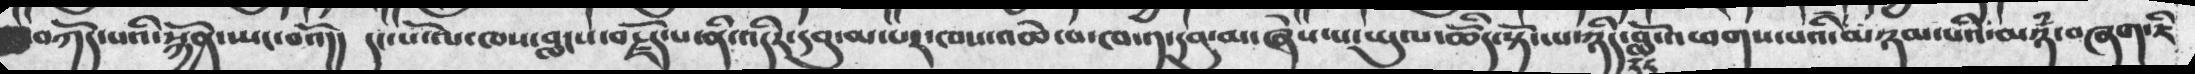བཀོད་པའི་སྐྱོན་ཡང་བའོ།།  དང་པོ་ལ་ཁས་བླངས་བརྗོད་པ་ནི་འདིར་དབུ་མ་པར་ཁས་འཆེ་བ་ཁ་༡་དབུ་མ་ཞེས་པ་ཡུལ་ཆོིད་སྟོང་པ་ཉིད་བློ་འཕགས་པའི་མཉམ་པའི་མཉཾ་བཞག་ཇི
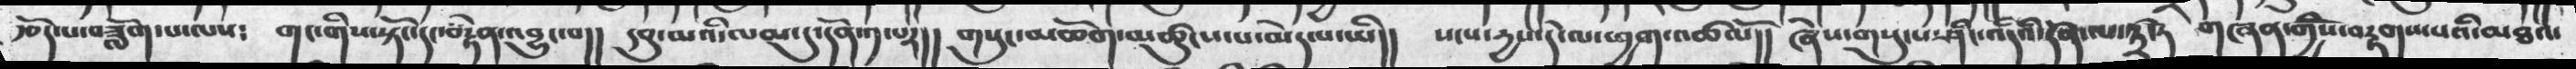རྩོད་པ་བཟློག་པ་ལས༴ གང་གིས་སྟོང་དང་བརྟེན་འབྱུང་བ།། དབུ་མའི་ལམ་དུ་དོན་༡་པར།། གསུང་མཆོག་མཚུངས་པ་མེད་པ་ཡི།། སངས་དྱས་དེ་ལ་ཕྱག་འཚལོ།། ཞེས་གསུངས་ཤིང་འདིའི་དོན་ལ་༣་ཏེ གཞན་གྱིས་བརྟགས་པའི་མཐའ་
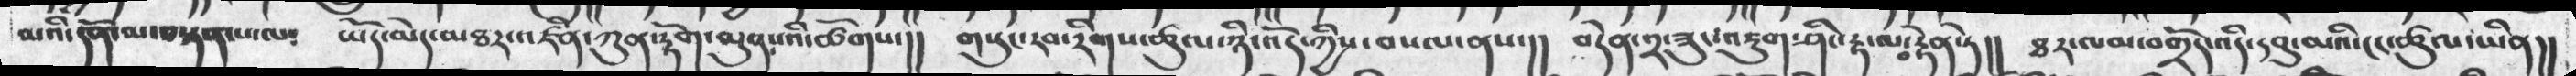མའི་དོན་བསྟན་པ་ལ༴  ཡོད་མེད་མཐར་འཛིན་ཀུན་རྟོག་མུན་པའི་ཚོགས་།།  གསུང་རབ་རིགས་ཚུལ་ཉི་འོད་ཀྱིས་བསལ་ནས་།།  བདེན་༢་ཟུང་འཇུག་ཤིང་རྟ་ལ་བརྟེན་ཏེ།།   ཐར་ལམ་བགྲོད་འདི་དབུ་མའི་ངང་ཚུལ་ཡིན།།
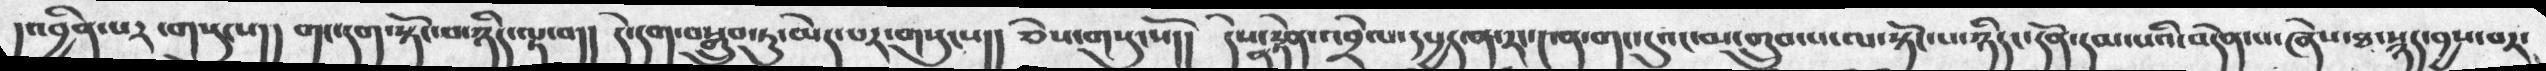།འབྱིན་པར་་གསུངས།།  གང་དག་སྟོང་པ་ཉིད་ལྟ་བ།།  དེ་དག་བསྒྲུབ་ཏུ་མེད་པར་གསུངས།།  ཅེས་གསུངསོ།།  དེས་ན་རྟེན་འབྲེལ་དཔྱད་ན་རང་༤ན་གང་དུའང་མ་གྲུབ་པ་ལ་སྟོང་པ་ཉིད་དོན་དམ་པའི་བདེན་པ་ཞེས་ཐ་སྙད་བྱས་བར་
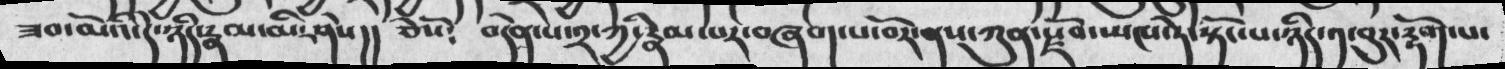ཟབ་མོའི་དེ་ཉིད་རྣམ་མི་ཤེས།། ཅེསོ༴ བདེན་པ་༢་ཀྱི་རྣམ་པར་བཞ་པ་བོར་ནས་ཀུན་སྫོབ་སྤངས་ཏེ་སྟོང་པ་ཉིད་༡་བུར་རྟོག་པ་
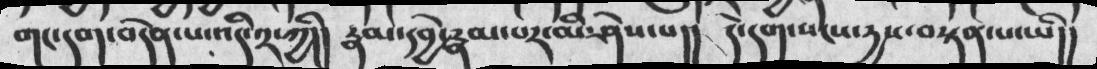གང་དག་བདེན་པ་འདི་༢་ཀྱི།། རྣམ་དབྱེ་རྣམ་པར་མི་ཤེས་པ།། དེ་དག་སངས་དྱས་བསྟན་པ་ཡི།།
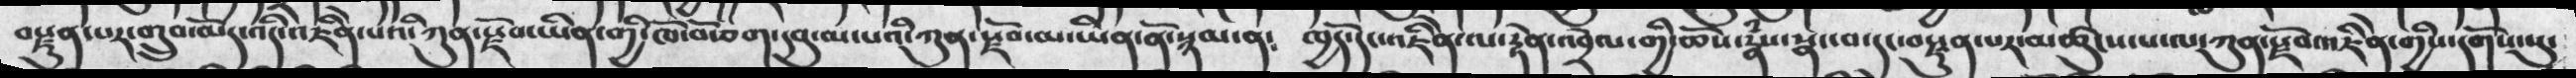བརྫུན་པར་གྲུབ་མོད་འདི་ཇིེན་པའི་ཀུན་སྫོབ་ཡིན་གྱི་ཁོ་བོ་ཅག་དབུ་མ་པའི་ཀུན་སྫོབ་མ་ཡིན་ནོ་སྙམ་ན༴ ཁྱོད་དང་འཇིེན་ལ་རྟེན་འབྲེལ་གྱི་ཆོས་རྣཾས་སྣང་བ་དང་བརྫུན་པར་མཚུངས་པ་ལ་ཀུན་རྫོབ་འཇིེན་གྱིས་དགོས་སུ་
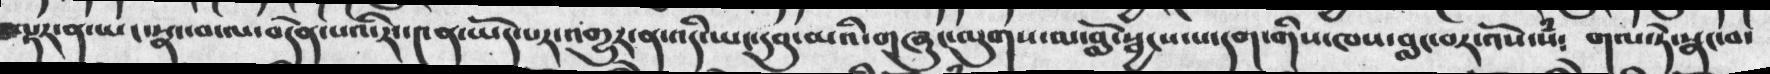ལྟར་ན་ཡང་སྣང་བ་ལ་བདེན་པའི་རང་༤ན་ཡོད་པར་འགྱུར་ན་འདི་ཡང་དབུ་མའི་གཞུང་ལུགས་ལ་བློ་སྦྱངས་པ་དག་གིས་ཁས་བླང་བར་འོས་སཾ༴  གལ་ཏེ་སྣང་བ་
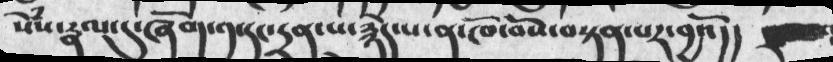སེཾས་རྣལ་དུ་ཞོག་༡་དང་དྲན་པ་རྙེད་པ་ན་ཁོ་བོས་བསྟན་པར་བྱའོ།།
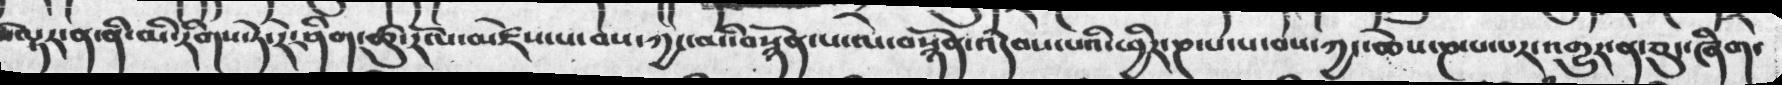ལྟར་ན་ནི་མི་རིགས་ཏེ་རེ་ཤིག་ཚུ་རོལ་མཛེས་པ་བས་ཀྱང་མི་བསྙོན་པ་ལ་བསྙོན་འདེབས་པའི་ཕྱིར་ཎ་པ་པ་བས་ཀྱང་ཆེས་ཎ་པ་པར་འགྱུར་ན་ཅུད་ཞིག་
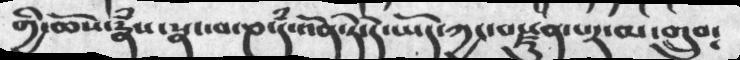གྱི་ཆོས་རྣཾས་སྣང་བ་ཎ་དཾ་འོན་ཏེ་དེ་ཡོད་ཀྱང་བརྫུན་པར་མ་གྲུབ༴
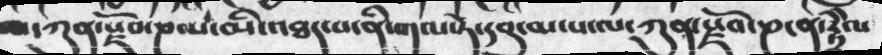ཀུན་རྫོབ་ཎ་པ་མི་འཐད་པ་ནི་གལ་ཏེ་དབུ་མ་པ་ལ་ཀུན་རྫོབ་ཎ་ན་རྟྲེེལ
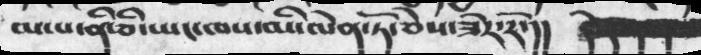མ་པ་ནི་ཅི་ཡང་ཁས་མི་ལེན་ཏོ་ཅེས་ཟེར་རོ་།།
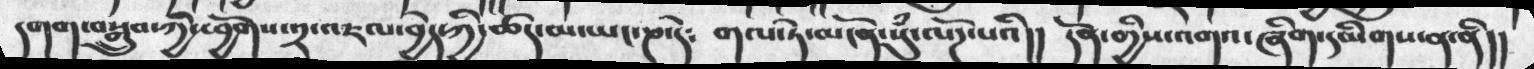དགག་བསྒྲུབ་ཀྱི་ཕྱོགས་༢་འཇལ་བྱེད་ཀྱི་ཚད་མ་ཡང་ཎ་དེ༴ གལ་ཏེ་མངོན་སུཾ་ལོཌ་པའི།། དོན་གྱིས་འགའ་ཞིག་དམིགས་ན་ནི།།
